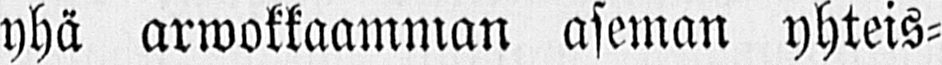yhä arwokkaamman aseman yhteis-
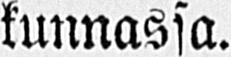kunnassa.
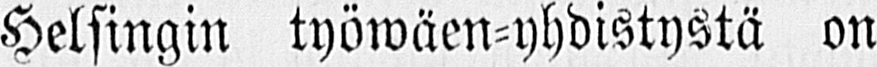Helsingin työwäen-yhdistystä on
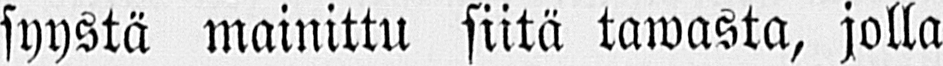syystä mainittu siitä tawasta, jolla
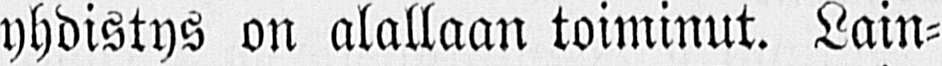yhdistys on alallaan toiminut. Lain-
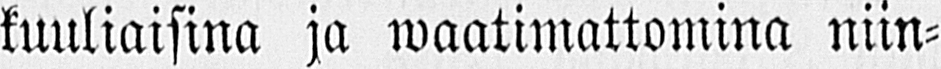kuuliaisina ja waatimattomina niin-
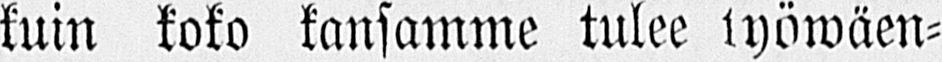kuin koko kansamme tulee työwäen-
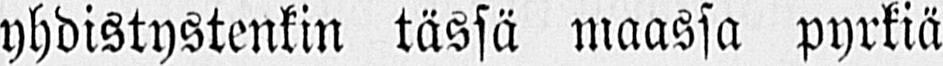yhdistystenkin tässä maassa pyrkiä
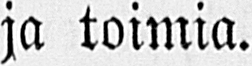ja toimia.
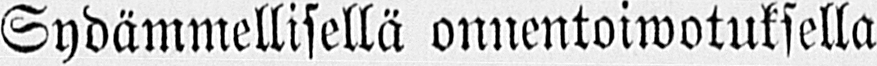Sydämmellisellä onnentoiwotuksella
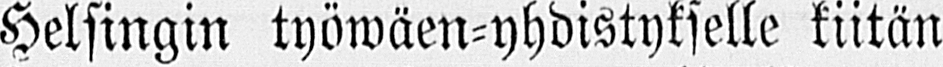Helsingin työwäen-yhdistykselle kiitän
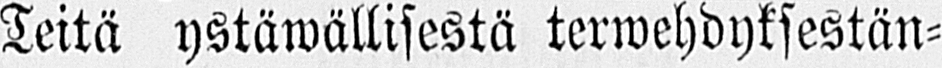Teitä ystäwällisestä terwehdyksestän-
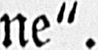ne".
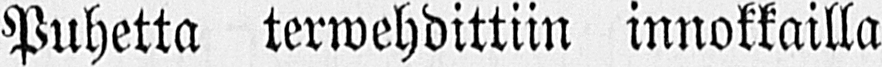Puhetta terwehdittiin innokkailla
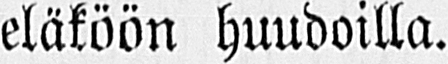eläköön huudoilla.
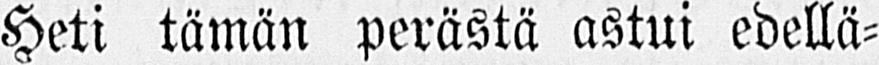Heti tämän perästä astui edellä-
